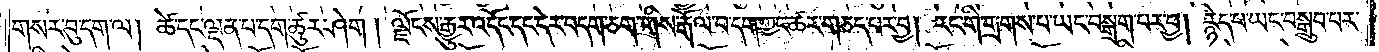གསར་བུ་དག་ལ། ཚེ་དང་ལྡན་པ་དག་ཚུར་ཤེག། ལྗོངས་རྒྱུར་འདོང་དང་དེར་བདག་ཅག་གིས་རྒོལ་བ་དག་ཀྱང་ཚར་གཅད་པར་བྱ། རང་གི་གྲགས་པ་ཡང་བསྒྲག་པར་བྱ། རྙེད་པ་ཡང་བསྒྲུབ་པར་
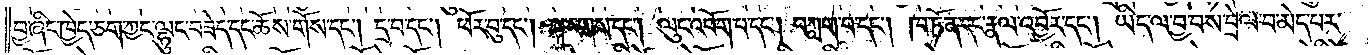བྱ་ཞིང་ཁྱེད་ཅག་ཀྱང་ལྷུང་བཟེད་དང་ཆོས་གོས་དང༌། དྲ་བ་དང༌། ཕོར་བུ་དང༌། སྐ་རགས་དང༌། ལུང་འབོག་པ་དང༌། བཀླག་པ་དང༌། ཁ་ཏོན་དང་རྣལ་འབྱོར་དང༌། ཡིད་ལ་བྱ་བས་བྲེལ་བ་མེད་པར་
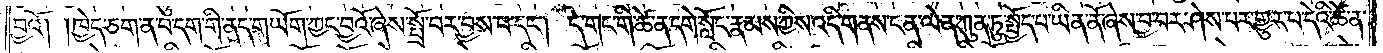བྱའོ། །ཁྱེད་ཅག་ན་བ་དག་གི་ནད་གཡོག་ཀྱང་བྱའོ་ཞེས་སྤྲོ་བར་བྱས་པ་དང༌། དེ་གང་གི་ཚེ་ན་དགེ་སློང་རྣམས་ཀྱིས་འདི་གནས་ངན་ལེན་ཀུན་ཏུ་སྤྱོད་པ་ཡིན་ནོ་ཞེས་བྱ་བར་ཤེས་པར་གྱུར་པ་དེའི་ཚེ་ན་
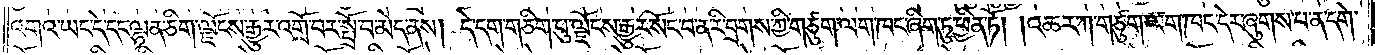འགའ་ཡང་དེ་དང་ལྷན་ཅིག་ལྗོངས་རྒྱུར་འགྲོ་བར་སྤྲོ་བ་མེད་ནས། དེ་དག་གཅིག་པུ་ལྗོངས་རྒྱུར་སོང་བ་ན་རི་བྲགས་ཀྱི་གཙུག་ལག་ཁང་ཞིག་ཏུ་ཕྱིན་ཏོ། །འཆར་ཀ་གཙུག་ལག་ཁང་དེར་ཞུགས་པ་ན་དགེ་
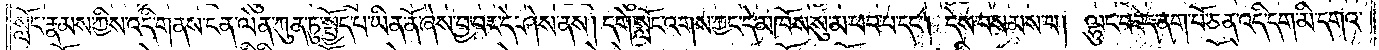སློང་རྣམས་ཀྱིས་འདི་གནས་ངན་ལེན་ཀུན་ཏུ་སྤྱོད་པ་ཡིན་ནོ་ཞེས་བྱ་བར་དེ་ཤེས་ནས། དགེ་སློང་འགས་ཀྱང་དེ་མཁོས་སུ་མ་ཕབ་པ་དང༌། དེས་བསམས་པ། ལྷུང་བཟེད་ནག་པོ་ཅན་འདི་དག་མི་དགའ་
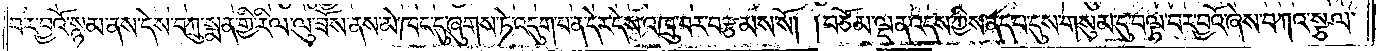བར་བྱའོ་སྙམ་ནས་དེས་བཀྲུ་སྨན་གྱི་རིལ་ལུ་ཟོས་ནས་མེ་ཁང་དུ་ཞུགས་ཏེ་འདུག་པ་ན་དེར་དེས་འཁྲུ་བར་བརྩམས་སོ། །བཅོམ་ལྡན་འདས་ཀྱིས་ནད་པ་དུས་གསུམ་དུ་བལྟ་བར་བྱའོ་ཞེས་བཀའ་སྩལ་
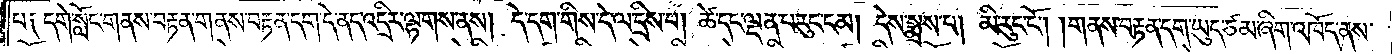པ༑ དགེ་སློང་གནས་བརྟན་གནས་བརྟན་དག་དེ་ནད་འདྲིས་ལྷགས་ནས། དེ་དག་གིས་དེ་ལ་དྲིས་པ། ཚེ་དང་ལྡན་པ་རུང་ངམ། དེས་སྨྲས་པ། མི་རུང་ངོ༌། །གནས་བརྟེན་དག་ཡུད་ཙམ་ཞིག་འཁོད་ནས་
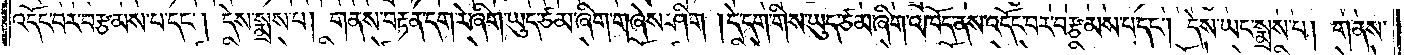འདོང་བར་བརྩམས་པ་དང༌། དེས་སྨྲས་པ། གནས་བརྟན་དག་རེ་ཞིག་ཡུད་ཙམ་ཞིག་གཞེས་ཤིག །དེ་དག་གིས་ཡུད་ཙམ་ཞིག་འཁོད་ནས་འདོང་བར་བརྩམས་པ་དང༌། དེས་ཡང་སྨྲས་པ། གནས་
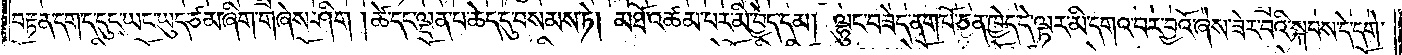བརྟན་དག་ད་དུང་ཡང་ཡུད་ཙམ་ཞིག་གཞེས་ཤིག །ཚེ་དང་ལྡན་པ་ཆེད་དུ་བསམས་ཏེ། མཐོ་འཚམ་པར་མི་བྱེད་དམ། ལྷུང་བཟེད་ནག་པོ་ཅན་ཁྱེད་དེ་ལྟར་མི་དགའ་བར་བྱའོ་ཞེས་ཟེར་བའི་སྐབས་དེ་དགེ་
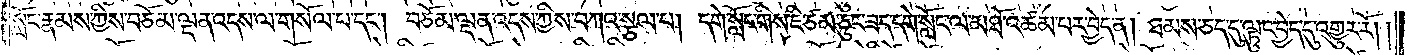སློང་རྣམས་ཀྱིས་བཅོམ་ལྡན་འདས་ལ་གསོལ་པ་དང༌། བཅོམ་ལྡན་འདས་ཀྱིས་བཀའ་སྩལ་པ། དགེ་སློང་གིས་ཇི་ཙམ་ཅུང་ཟད་དགེ་སློང་ལ་མཐོ་འཚམ་པར་བྱེད་ན། ཐམས་ཅད་དུ་ལྟུང་བྱེད་དུ་འགྱུར་རོ། །
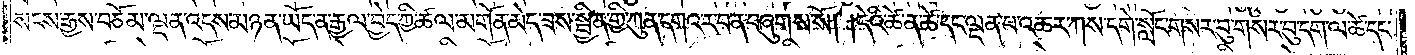སངས་རྒྱས་བཅོམ་ལྡན་འདས་མཉན་ཡོད་ན་རྒྱལ་བྱེད་ཀྱི་ཚལ་མགོན་མེད་ཟས་སྦྱིན་གྱི་ཀུན་དགའ་ར་བ་ན་བཞུགས་སོ། །དེའི་ཚེ་ན་ཚེ་དང་ལྡན་པ་འཆར་ཀས་དགེ་སློང་གསར་བུ་གསར་བུ་དག་ལ་ཚེ་དང་
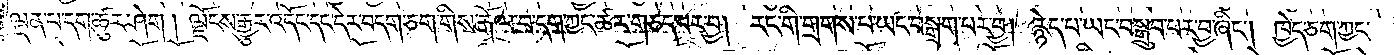ལྡན་པ་དག་ཚུར་ཤེག །ལྗོངས་རྒྱུར་འདོང་དང་དེར་བདག་ཅག་གིས་རྒོལ་བ་དག་ཀྱང་ཚར་གཅད་པར་བྱ། རང་གི་གྲགས་པ་ཡང་བསྒྲག་པར་བྱ། རྙེད་པ་ཡང་བསྒྲུབ་པར་བྱ་ཞིང༌། ཁྱེད་ཅག་ཀྱང་
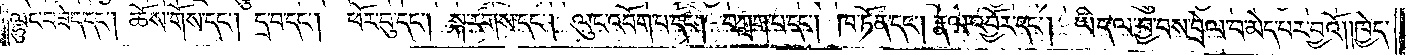ལྷུང་བཟེད་དང༌། ཆོས་གོས་དང༌། དྲ་བ་དང༌། ཕོར་བུ་དང༌། སྐ་རགས་དང༌། ལུང་འབོག་པ་དང༌། བཀླག་པ་དང༌། ཁ་ཏོན་དང༌། རྣལ་འབྱོར་དང༌། ཡིད་ལ་བྱ་བས་བྲེལ་བ་མེད་པར་བྱའོ། །ཁྱེད་
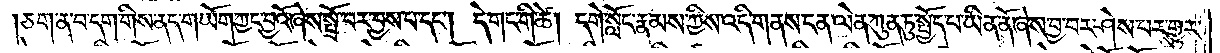ཅག་ན་བ་དག་གིས་ནད་གཡོག་ཀྱང་བྱའོ་ཞེས་སྤྲོ་བར་བྱས་པ་དང༌། དེ་གང་གི་ཚེ། དགེ་སློང་རྣམས་ཀྱིས་འདི་གནས་ངན་ལེན་ཀུན་ཏུ་སྤྱོད་པ་ཡིན་ནོ་ཞེས་བྱ་བར་ཤེས་པར་གྱུར་
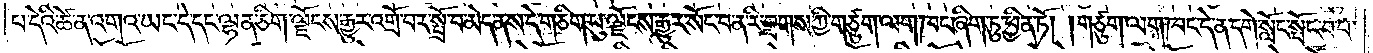པ་དེའི་ཚེ་ན་འགའ་ཡང་དེ་དང་ལྷན་ཅིག་ལྗོངས་རྒྱུར་འགྲོ་བར་སྤྲོ་བ་མེད་ནས་དེ་གཅིག་པུ་ལྗོངས་རྒྱུར་སོང་བ་ན་རི་བྲགས་ཀྱི་གཙུག་ལག་ཁང་ཞིག་ཏུ་ཕྱིན་ཏོ། །གཙུག་ལག་ཁང་དེ་ན་དགེ་སློང་སྤོང་བ་པ་
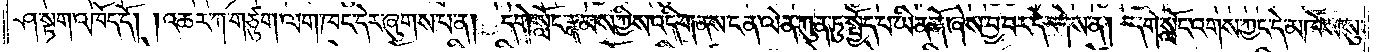ཤ་སྟག་འཁོད་དོ། །འཆར་ཀ་གཙུག་ལག་ཁང་དེར་ཞུགས་པ་ན། དགེ་སློང་རྣམས་ཀྱིས་འདི་གནས་ངན་ལེན་ཀུན་ཏུ་སྤྱོད་པ་ཡིན་ནོ་ཞེས་བྱ་བར་དེ་ཤེས་ན། དགེ་སློང་འགས་ཀྱང་དེ་མཁོས་སུ་
